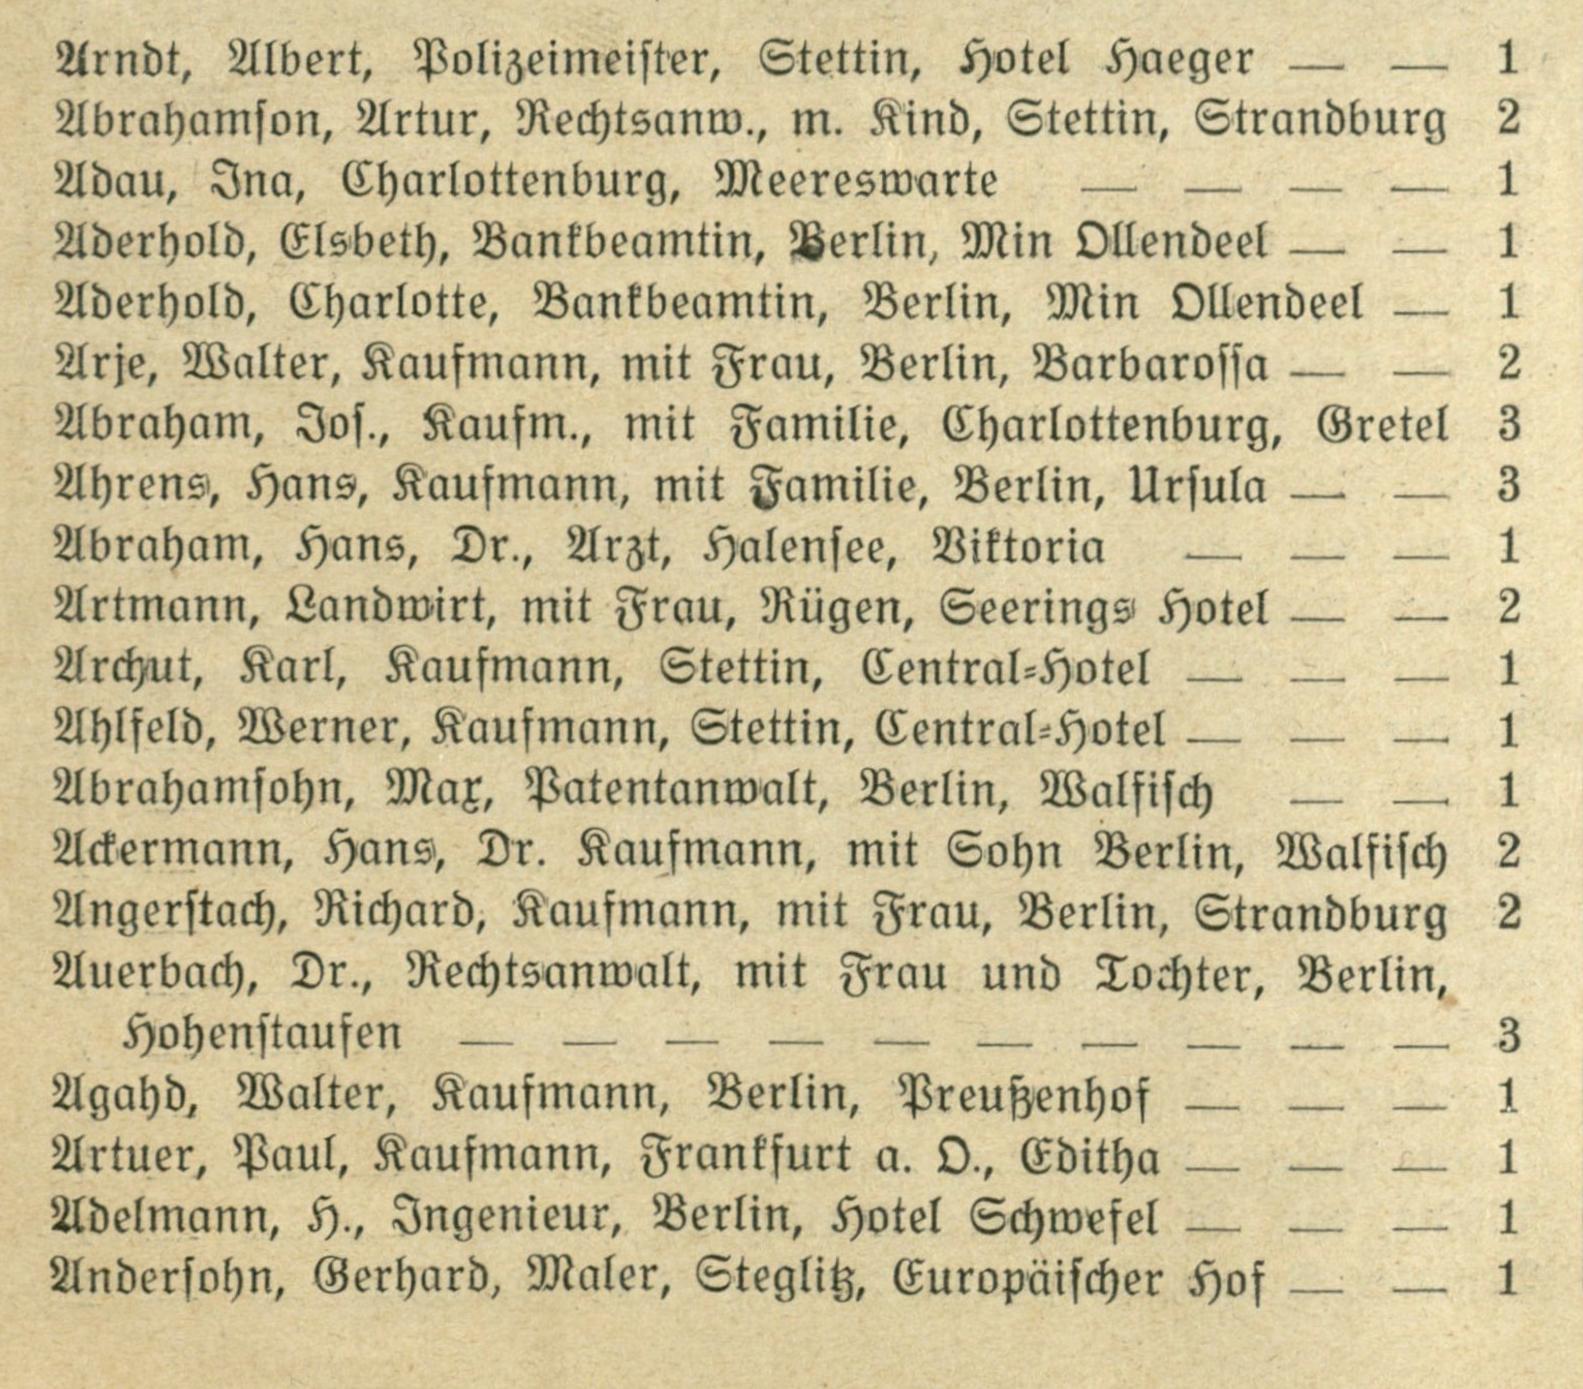Arndt, Albert, Polizeimeister, Stettin, Hotel Haegers | 1
Abrahamson, Artur, Rechtsanw., m. Kind, Stettin, Strandburg | 2
Adau, Ina, Charlottenburg, Meereswarte | 1
Aderhold, Elsbeth, Bankbeamtin, Berlin, Min Ollendeel | 1
Aderhold, Charlotte, Bankbeamtin, Berlin, Min Ollendeel | 1
Arje, Walter, Kaufmann, mit Frau, Berlin, Barbarossa | 2
Abraham, Jos., Kaufm., mit Familie, Charlottenburg, Gretel | 3
Ahrens, Hans, Kaufmann, mit Familie, Berlin, Ursula | 3
Abraham, Hans, Dr., Arzt, Halensee, Viktoria | 1
Artmann, Landwirt, mit Frau, Rügen, Seerings Hotel | 2
Archut, Karl, Kaufmann, Stettin, Central=Hotel | 1
Ahlfeld, Werner, Kaufmann, Stettin, Central=Hotel | 1
Abrahamsohn, Max, Patentanwalt, Berlin, Walfisch | 1
Ackermann, Hans, Dr. Kaufmann, mit Sohn Berlin, Walfisch | 2
Angerstach, Richard, Kaufmann, mit Frau, Berlin, Strandburg | 2
Auerbach, Dr., Rechtsanwalt, mit Frau und Tochter, Berlin,
Hohenstaufen | 3
Agahd, Walter, Kaufmann, Berlin, Preußenhof | 1
Artuer, Paul, Kaufmann, Frankfurt a. O., Editha | 1
Adelmann, H., Ingenieur, Berlin, Hotel Schwefel | 1
Andersohn, Gerhard, Maler, Steglitz, Europäischer Hof | 1
